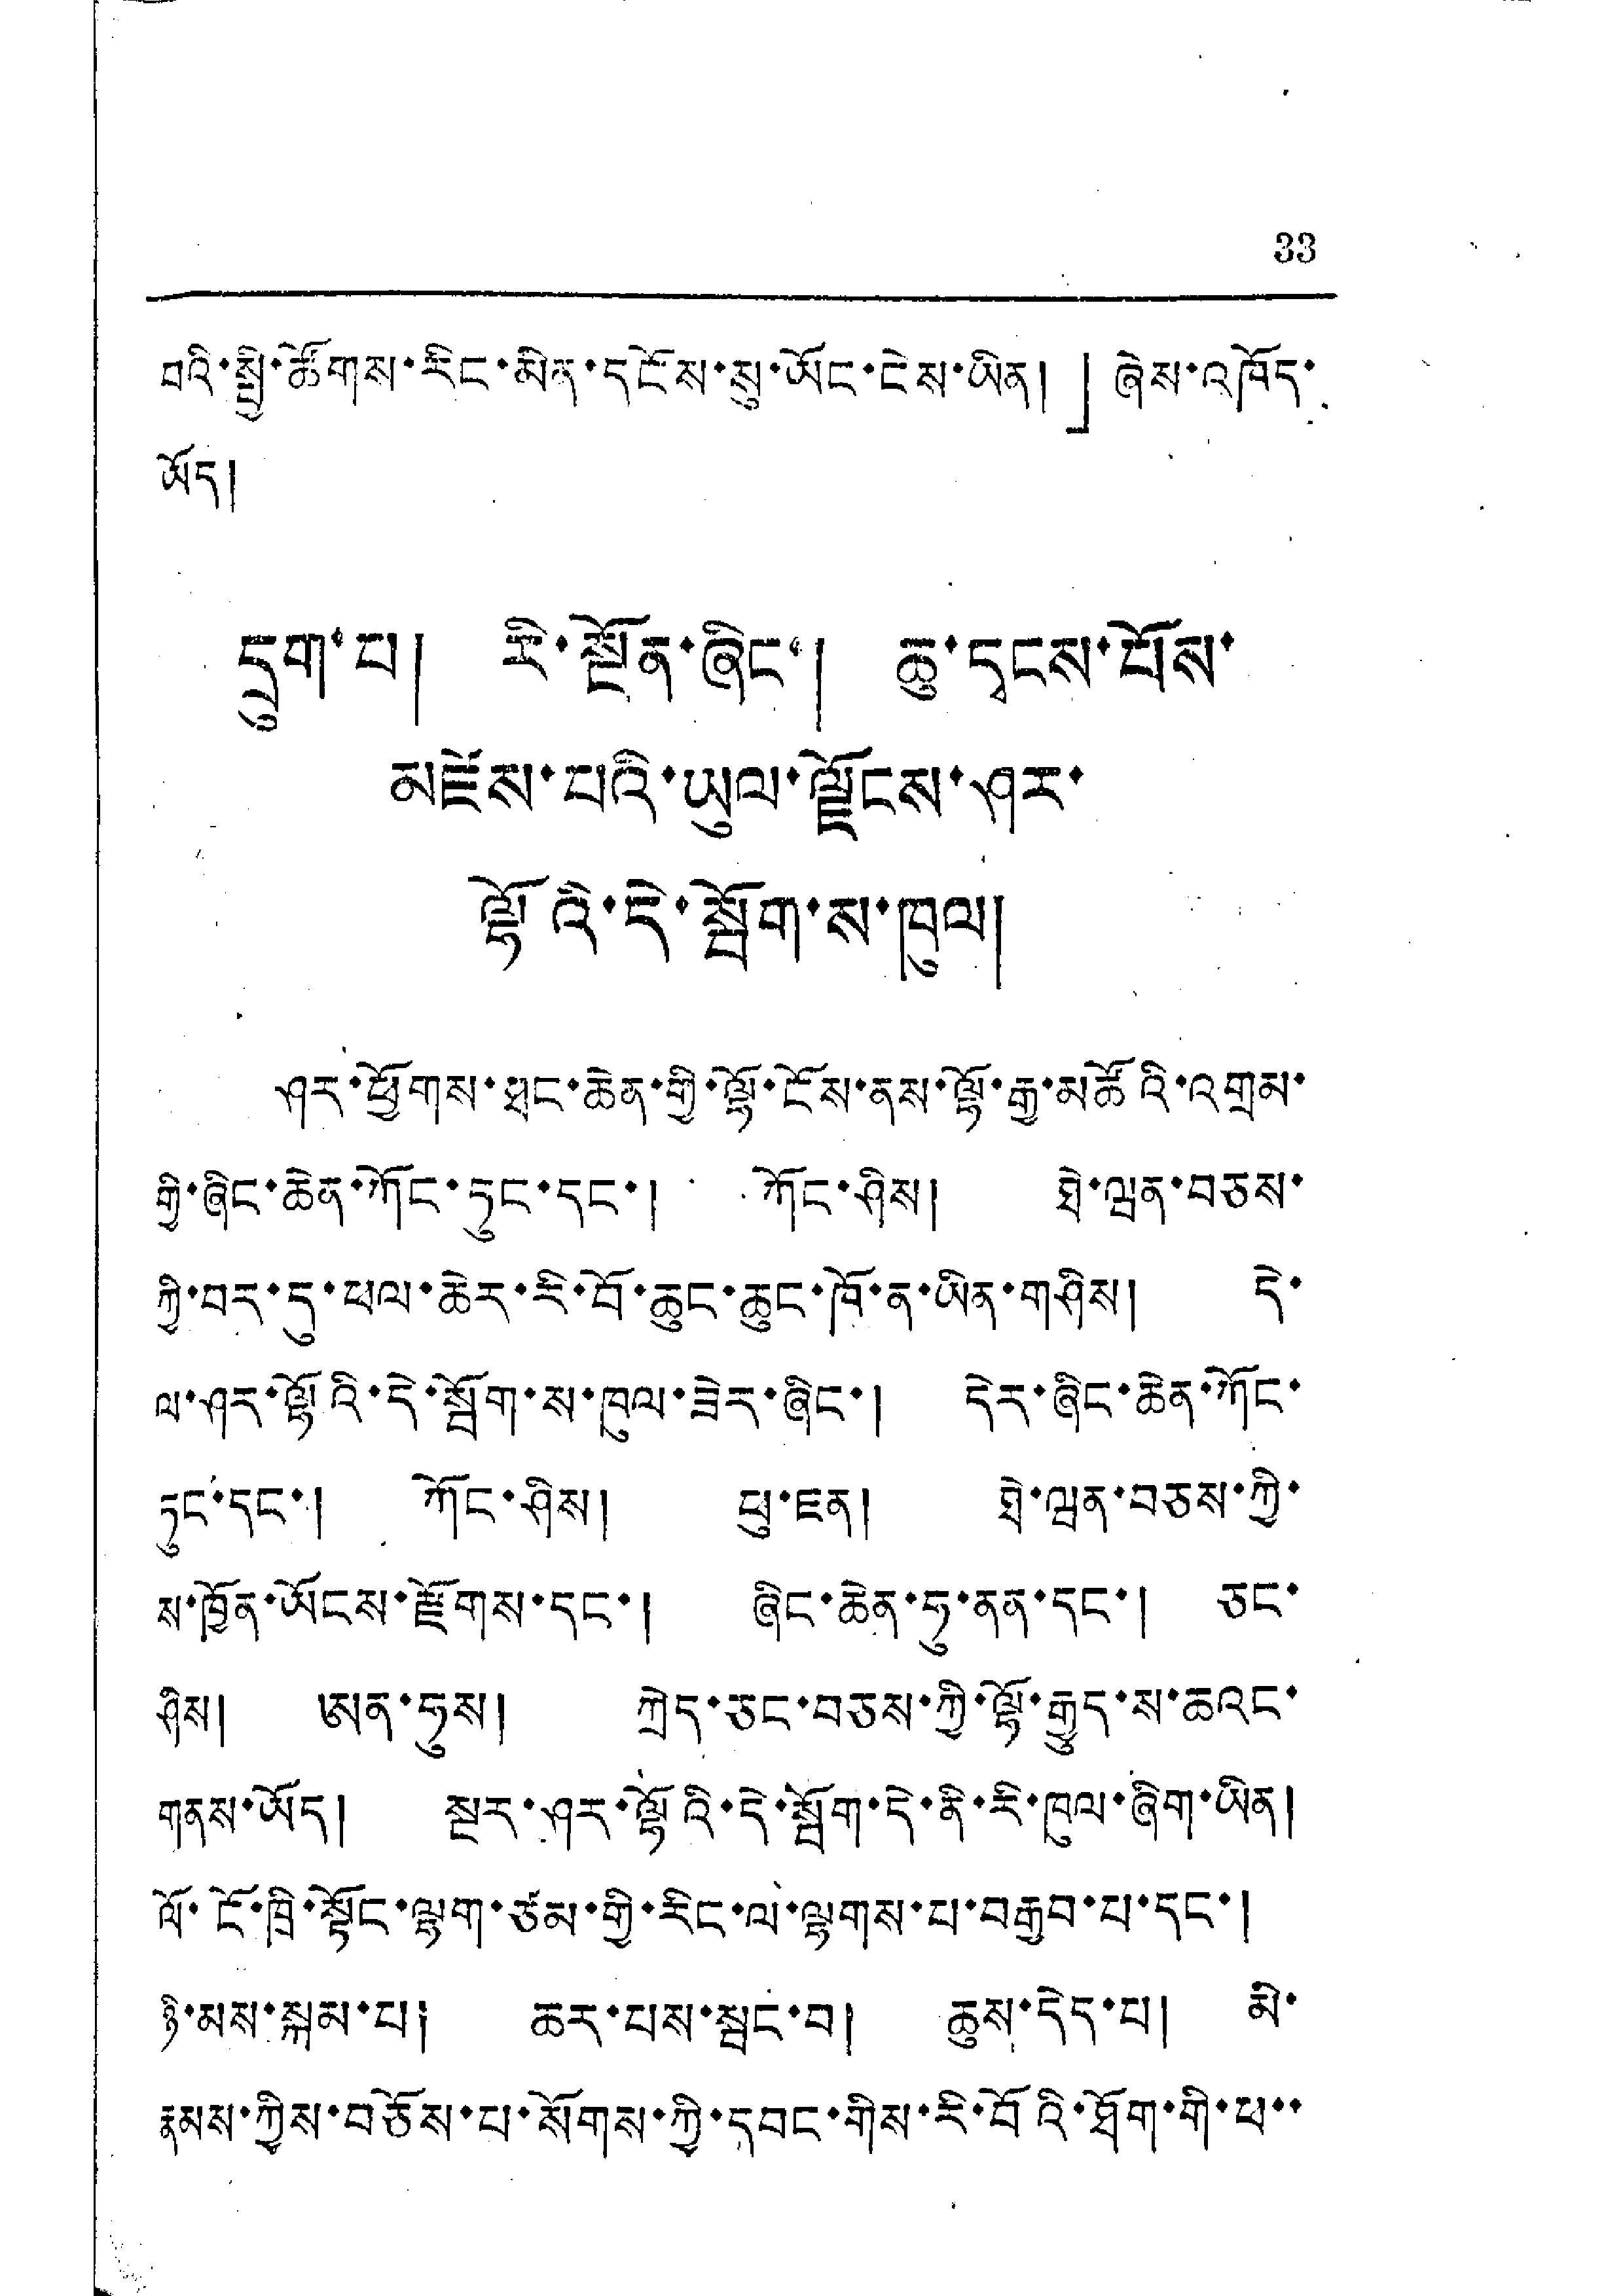33
བའི་སྤྱི་ཚོགས་རིང་མིན་དངོས་སུ་ཡོང་ངེས་ཡིན།」ཞེས་འཁོད་
ཡོད།
དྲུག་པ། རི་སྔོན་ཞིང་། ཆུ་དྭངས་པོས་
མཛེས་པའི་ཡུལ་ལྗོངས་ཤར་
ལྟོའི་དེ་སྦོག་ས་ཁྲུལ།
ཤར་ཕྱོགས་ཐང་ཆེན་གྱི་ལྷོ་ངོས་ནས་ལྷོ་རྒྱ་མཚོའི་འགྲམ་
གྱི་ཞིང་ཆེན་ཀོང་ཏུང་དང་། ཀོང་ཤིས། ཐེ་ཝན་བཅས་
ཀྱི་བར་དུ་ཕལ་ཆེར་རི་བོ་ཆུང་ཆུང་ཁོ་ན་ཡིན་གཤིས། དེ་
ལ་ཤར་ལྷོའི་དེ་སྦོག་ས་ཁུལ་ཟེར་ཞིང་། དེར་ཞིང་ཆེན་ཀོང་
ཏུང་དང་། ཀོང་ཤིས། ཕུ་ཇན། ཐེ་ཝན་བཅས་ཀྱི་
ས་ཁྱོན་ཡོངས་རྫོགས་དང་། ཞིང་ཆེན་ཧུ་ནན་དང་། ཅང་
ཤིས། ཨན་ཧུས། ཀྲེད་ཅང་བཅས་ཀྱི་ལྷོ་རྒྱུད་ས་ཆའང་
གནས་ཡོད། སྔར་ཤར་ལྷོའི་དེ་སྦོག་དེ་ནི་རི་ཁུལ་ཞིག་ཡིན།
ལོ་ངོ་ཁྲི་སྟོང་ལྷག་ཙམ་གྱི་རིང་ལ་ལྷགས་པ་བརྒྱབ་པ་དང་།
ཉི་མས་སྐམ་པ། ཆར་པས་སྦང་བ། ཆུས་དེད་པ། མི་
རྣམས་ཀྱིས་བཅོས་པ་སོགས་ཀྱི་དབང་གིས་རི་བོའི་ཐོག་གི་ཕ་་
